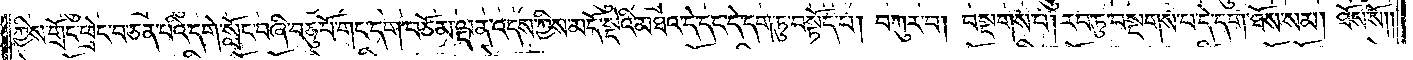ཀྱིས་གྲོང་ཕྲེང་བ་ཅན་པའི་དགེ་སློང་བཞི་བཅུ་པོ་གང་དག་བཅོམ་ལྡན་འདས་ཀྱིས་མདོ་སྡེའི་མཐའ་དེ་དང་དེ་དག་ཏུ་བསྟོད་པ། བཀུར་བ། བསྔགས་པ། རབ་ཏུ་བསྔགས་པ་དེ་དག་ཐོས་སམ། ཐོས་སོ༎
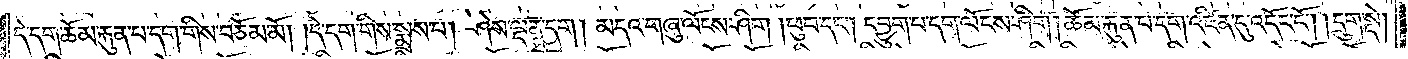དེ་དག་ཆོམ་རྐུན་པ་དག་གིས་བཅོམ་མོ། །དེ་དག་གིས་སྨྲས་པ། ཤེས་ལྡན་དག །མདའ་གཞུ་ལོངས་ཤིག །ཕུབ་དང༌། དབྱུག་པ་དག་ལོངས་ཤིག །ཆོམ་རྐུན་པ་དག་འཛིན་དུ་འདོང་ངོ༌། །དྲུག་སྡེ།
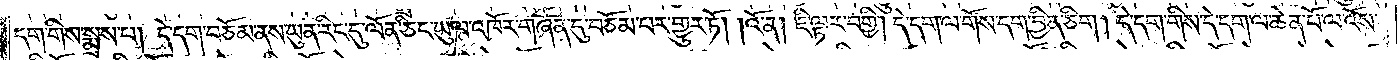དག་གིས་སྨྲས་པ། དེ་དག་བཅོམ་ནས་ཡུན་རིང་དུ་ལོན་ཅིང་ཡུལ་འཁོར་གཞན་དུ་བཅོམ་པར་གྱུར་ཏོ། །འོ་ན། ཇི་ལྟར་བགྱི། དེ་དག་ལ་གོས་དག་བྱིན་ཅིག། དེ་དག་གིས་དེ་དག་ལ་ཆེན་པོ་ལ་འོས་
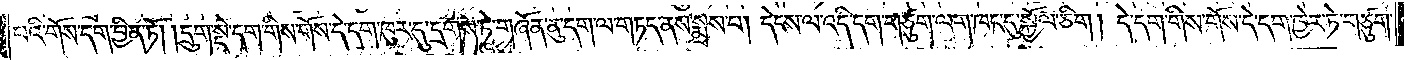པའི་གོས་དག་བྱིན་ཏོ། །དྲུག་སྡེ་དག་གིས་གོས་དེ་དག་ཁུར་དུ་དྲགས་ཏེ་གཞོན་ནུ་དག་ལ་གཏད་ནས་སྨྲས་པ། དེངས་ལ་འདི་དག་གཙུག་ལག་ཁང་དུ་སྐྱོལ་ཅིག། དེ་དག་གིས་གོས་དེ་དག་ཁྱེར་ཏེ་གཙུག་
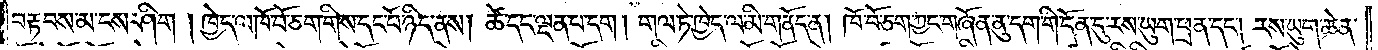བརྟབས་མ་ངས་ཤིག ། ཁྱེད་ལ་ཁོ་བོ་ཅག་གིས་དང་པོ་ཉིད་ནས། ཚེ་དང་ལྡན་པ་དག ། གལ་ཏེ་ཁྱེད་ལ་མི་གནོད་ན། ཁོ་བོ་ཅག་ཀྱང་གཞོན་ནུ་དག་གི་དོན་དུ་རས་ཡུག་ཕྲན་དང༌། རས་ཡུག་ཆེན་
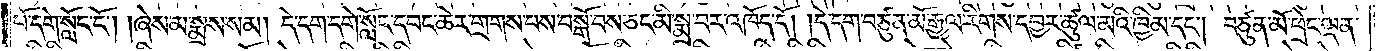པོ་དགེ་སློང་ངོ༌། །ཞེས་མ་སྨྲས་སམ།    དེ་དག་དགེ་སློང་དབང་ཆེར་གྲགས་པས་བསྒོ་བས་ཅང་མི་སྨྲ་བར་འཁོད་དོ། །དེ་དག་བཙུན་མོ་རྒྱལ་རིགས་དབྱར་ཚུལ་མའི་ཁྱིམ་དང༌། བཙུན་མོ་ཕྲེང་ལྡན་
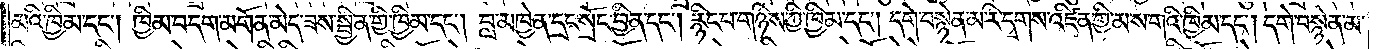མའི་ཁྱིམ་དང༌། ཁྱིམ་བདག་མགོན་མེད་ཟས་སྦྱིན་གྱི་ཁྱིམ་དང༌། བླ་མཁྱེན་དྲང་སྲོང་བྱིན་དང༌། རྙིང་པ་གཉིས་ཀྱི་ཁྱིམ་དང༌། དགེ་བསྙེན་མ་རི་དྭགས་འཛིན་གྱི་མ་ས་གའི་ཁྱིམ་དང༌། དགེ་བསྙེན་མ་
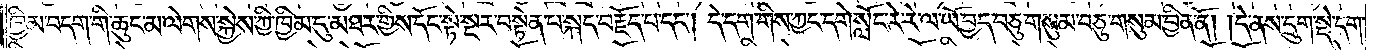ཁྱིམ་བདག་གི་ཆུང་མ་ལེགས་སྐྱེས་ཀྱི་ཁྱིམ་དུ་མཐར་གྱིས་དོང་སྟེ་སྔར་བསྟེན་པ་སྐད་བརྗོད་པ་དང༌། དེ་དག་གིས་ཀྱང་དགེ་སློང་རེ་རེ་ལ་ཡོ་བྱད་བཅུ་གསུམ་བཅུ་གསུམ་བྱིན་ནོ། །དེ་ནས་དྲུག་སྡེ་དག་
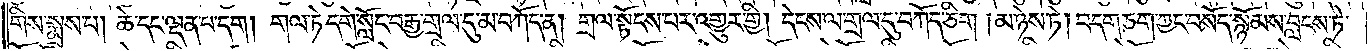གིས་སྨྲས་པ། ཚེ་དང་ལྡན་པ་དག། གལ་ཏེ་དགེ་སློང་བརྒྱ་གྲལ་དུ་མ་བཀོད་ན། གྲལ་སྟོངས་པར་འགྱུར་གྱི། དེངས་ལ་གྲལ་དུ་བཀོད་ཅིག །མ་ཉེས་ཏེ། བདག་ཅག་ཀྱང་བསོད་སྙོམས་བླངས་ཏེ་
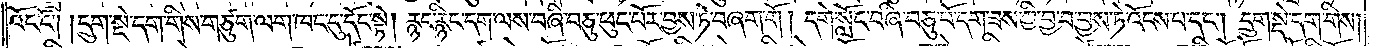འོང་ངོ༌། །དྲུག་སྡེ་དག་གིས་གཙུག་ལག་ཁང་དུ་དོང་སྟེ། རྙང་རྙིང་དག་ལས་བཞི་བཅུ་ཕུང་པོར་བྱས་ཏེ་བཞག་གོ། །དགེ་སློང་བཞི་བཅུ་པོ་དག་ཟས་ཀྱི་བྱ་བ་བྱས་ཏེ་འོངས་པ་དང༌། དྲུག་སྡེ་དག་གིས།
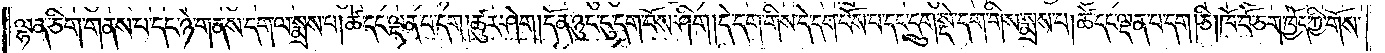ལྷན་ཅིག་གནས་པ་དང་ཉེ་གནས་དག་ལ་སྨྲས་པ། ཚེ་དང་ལྡན་པ་དག།ཚུར་ཤེག།དོན་ཉུང་དུ་དག་བོས་ཤིག།དེ་དག་གིས་དེ་དག་པོས་པ་དང་དྲུག་སྡེ་དག་གིས་སྨྲས་པ།ཚེ་དང་ལྡན་པ་དག།ཅི།ཁོ་བོ་ཅག་ཁྱོད་ཀྱི་གོས་
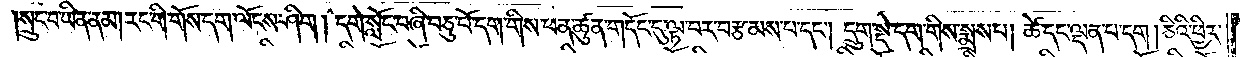སྲུང་བ་ཡིན་ནམ། རང་གི་གོས་དག་ལོངས་ཤིག །དགེ་སློང་བཞི་བཅུ་པོ་དག་གིས་ཕན་ཚུན་གདོང་དུ་ལྟ་བར་བརྩམས་པ་དང༌། དྲུག་སྡེ་དག་གིས་སྨྲས་པ། ཚེ་དང་ལྡན་པ་དག། ཅིའི་ཕྱིར་
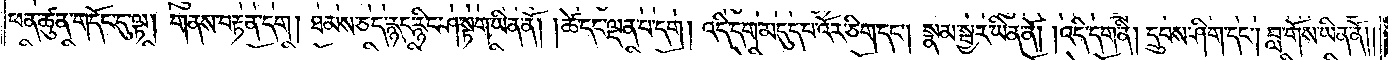ཕན་ཚུན་གདོང་དུ་ལྟ། གནས་བརྟན་དག། ཐམས་ཅད་རྙང་རྙིང་ཤ་སྟག་ཡིན་ནོ། །ཚེ་དང་ལྡན་པ་དག། འདི་དག་མདུད་པ་འོར་ཅིག་དང༌། སྣམ་སྦྱར་ཡིན་ནོ། །འདི་དག་ནི། དྲུབས་ཤིག་དང༌། བླ་གོས་ཡིན་ནོ། །
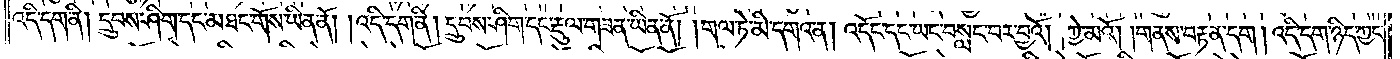འདི་དག་ནི། དྲུབས་ཤིག་དང་མཐང་གོས་ཡིན་ནོ། །འདི་དག་ནི། དྲུབས་ཤིག་དང་རྡུལ་གཟན་ཡིན་ནོ། །གལ་ཏེ་མི་དགའ་ན། འདོང་དང་ཡང་བསླང་བར་བྱའོ། །ཀྱེ་མའོ། །གནས་བརྟན་དག །འདི་དག་ཉིད་ཀྱང་
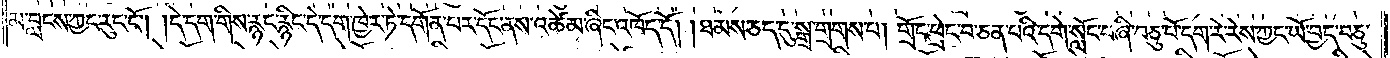མ་བླངས་ཀྱང་རུང་ངོ༌། །དེ་དག་གིས་རྙང་རྙིང་དེ་དག་ཁྱེར་ཏེ་དགོན་པར་དོང་ནས་འཚེམ་ཞིང་འཁོད་དོ། །ཐམས་ཅད་དུ་སྒྲ་གྲགས་པ། གྲོང་ཕྲེང་བ་ཅན་པའི་དགེ་སློང་བཞི་བཅུ་པོ་དག་རེ་རེས་ཀྱང་ཡོ་བྱད་བཅུ་
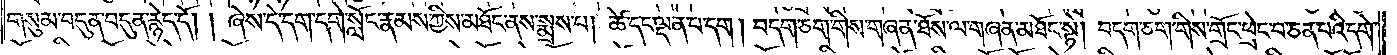གསུམ་བདུན་བདུན་རྙེད་དོ། །ཞེས་དེ་དག་དགེ་སློང་རྣམས་ཀྱིས་མཐོང་ནས་སྨྲས་པ། ཚེ་དང་ལྡན་པ་དག། བདག་ཅག་གིས་གཞན་ཐོས་ལ་གཞན་མཐོང་སྟེ། བདག་ཅག་གིས་གྲོང་ཕྲེང་བ་ཅན་པའི་དགེ་
